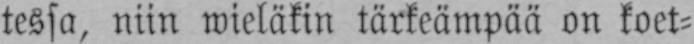tessa, niin wieläkin tärkeämpää on koet-
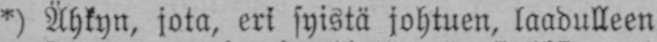*) Ähkyn, jota, eri syistä johtuen, laadulleen
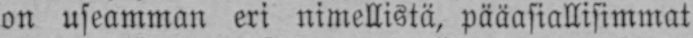on useamman eri nimellistä, pääasiallisimmat
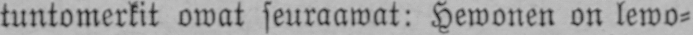tuntomerkit owat seuraawat: Hewonen on lewo-
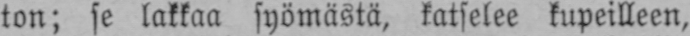ton; se lakkaa syömästä, katselee kupeilleen,
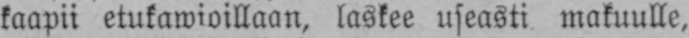kaapii etukawioillaan, laskee useasti makuulle,
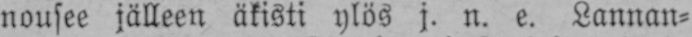nousee jälleen äkisti ylös j. n. e. Lannan-
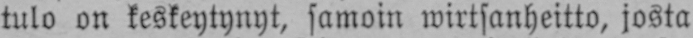tulo on keskeytynyt, samoin wirtsanheitto, josta
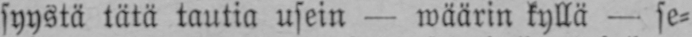syystä tätä tautia usein — wäärin kyllä — se-
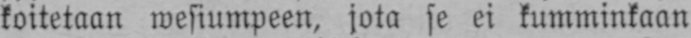koitetaan wesiumpeen, jota se ei kumminkaan
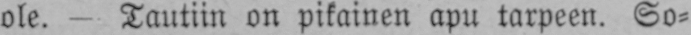ole. — Tautiin on pikainen apu tarpeen. So-
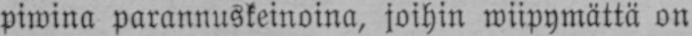piwina parannuskeinoina, joihin wiipymättä on
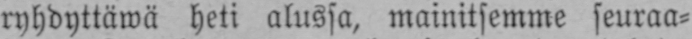ryhdyttäwä heti alussa, mainitsemme seuraa-
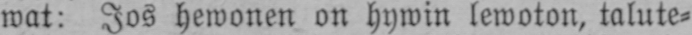wat: Jos hewonen on hywin lewoton, talute-
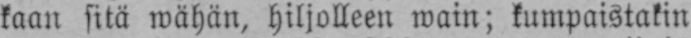taan sitä wähän, hiljolleen wain; kumpaistakin
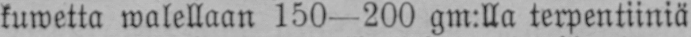kuwetta walellaan 150—200 gm:lla terpentiiniä
